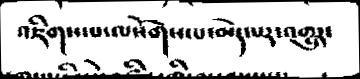འཇིགས་པ་ལསོགས་པ་མེད་པར་འགྱུར་
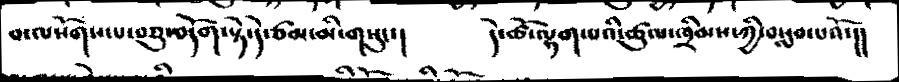བ་ལསོགས་པ་བཅུ་བདོག་སྟེ་དེ་ཙམ་མི་གསུང་།     དེ་ཚོ་ལྷག་པའི་ཚུལ་ཁྲིམས་ཀྱི་བསླབ་པའོ་།།
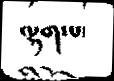ལྷག་པ་
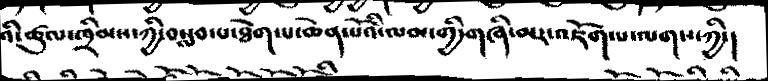འི་ཚུལ་ཁྲིམས་ཀྱི་བསླབ་པ་ཐེག་་ཆེན་པོའི་ལམ་གྱི་གཞི་མར་འཇོག་པ་ལགས་ཀྱི་།
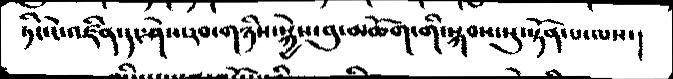ཏིང་ངེ་འཛིན་དང་ཤེས་རབ་གཉིས་སྐྱེས་བུ་མཆོག་གི་སྐབས་སུ་སྟོན་པ་ལས་།
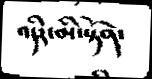འདིར་མི་སྟོན་
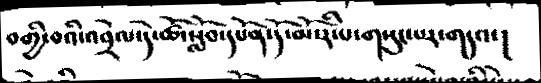བགྱི་བའི་འབྲེལ་དེ་ཚེ་སློབ་དཔོན་དོ་མོ་རི་པ་གསུང་པར་གདའ་།
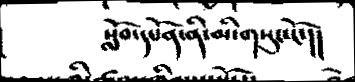སློབ་དཔོན་ནི་མི་གསུང་ངོ་།།
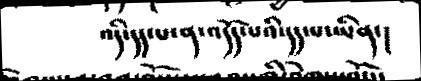འདི་དད་པ་ན་འདོད་པའི་དད་པ་ཡིན་།
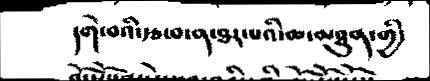དགེ་བའི་རྩ་བ་ན་ཐར་པའི་ཆ་མཐུན་གྱི་
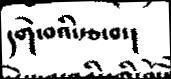དགེ་བའི་རྩ་བ་།
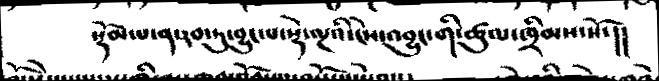སྡོམ་པ་ན་རབ་ཏུ་བྱུང་པ་སྟེ་ལྔའི་ངེས་འབྱུང་གི་ཚུལ་ཁྲིམས་སོ་།།
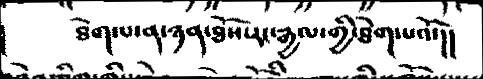ཐེག་པ་ན་ཉན་ཐོས་རང་རྒྱལ་གྱི་ཐེག་པའོ་།།
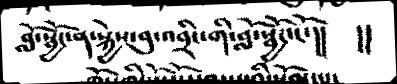བློ་སྦྱོང་ན་སྐྱེས་བུ་འབྲིང་གི་བློ་སྦྱོང་ངོ་།།
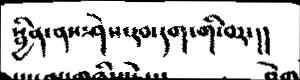སྦྱིན་ནས་ཤེས་རབ་དག་གི་བར་།།
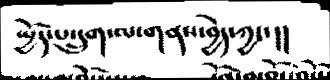སྤྱོད་པ་དྲུག་ལ་གནས་བྱེད་ཀྱང་།།
